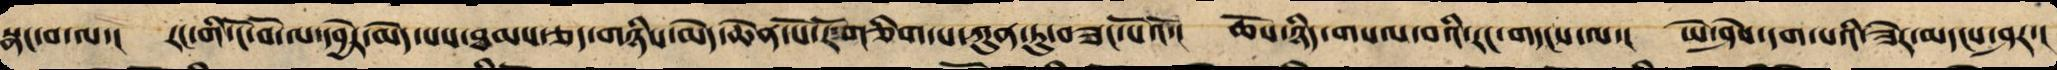སྣང་བ་ལས་། རང་གི་ངོ་བོ་ལ་དབྱེར་མེད་པས་ཐམས་ཅད་གཉིས་མེད་ཆེན་པོར་རོ་གཅིག་པས་ཀུན་ཏུ་བཟང་པོའོ་། ཆོས་ཉིད་གསལ་བའི་རང་གདངས་ལ་། ཡེ་ཤེས་དག་པའི་ཟེར་མདངས་ཤར་།
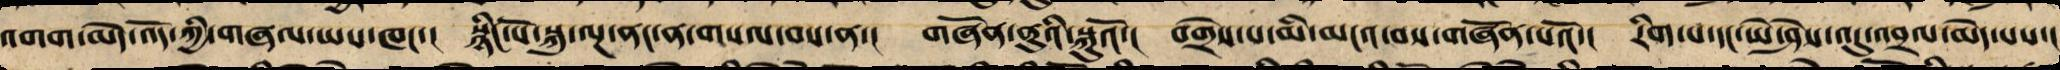འགག་མེད་འོད་ཀྱི་གཞལ་ཡས་ཁང་། སྙིང་པོ་སྐུ་ལྔ་ནང་ན་གསལ་བས་ན་། གཞོན་ནུའི་སྐུའོ་། བགྲེས་པ་མི་མངའ་བས་གཞོན་པའོ་། རིག་པ་དང་ཡེ་ཤེས་འདུ་འབྲལ་མེད་པས་།
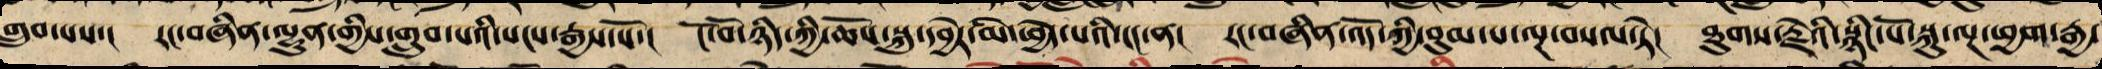གྲུབ་པས་། རང་བཞིན་ལྷུན་གྱིས་གྲུབ་པའི་སངས་རྒྱས་སོ་། ངོ་བོ་ཉིད་ཀྱི་སྐུ་དབྱེར་མི་ཕྱེད་པའི་ངང་ནས་། རང་བཞིན་འོད་ཀྱི་བུམ་པ་ལྔ་གསལ་ཏེ་། ཐུགས་རྗེའི་སྙིང་པོ་སྐུ་ལྔ་ཕྱག་རྒྱ་
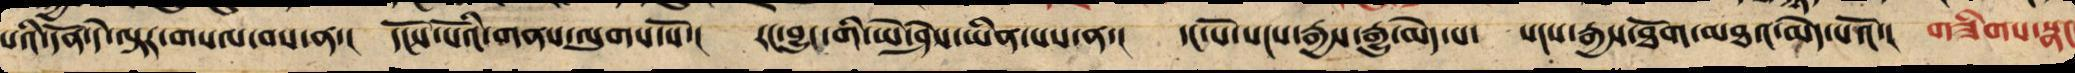པའི་དོན་དེ་ལྟར་གསལ་བས་ན་། དངོས་པོའི་གནས་ལུགས་སོ་། རང་བྱུང་གི་ཡེ་ཤེས་ཡིན་པས་ན་། དང་པོའི་སངས་རྒྱས་རྒྱུ་མེད་པ་། སངས་རྒྱས་ཐོག་མཐའ་མེད་པའོ་། གཟིགས་སྣང་
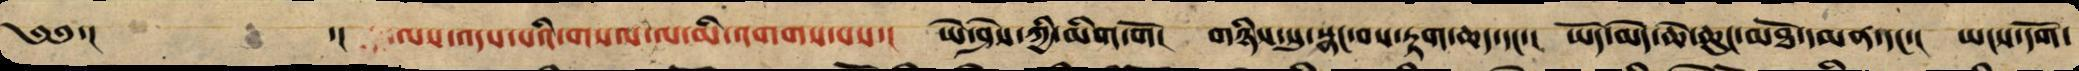༄༅་།  ་། ལས་འདས་པའི་གསལ་བ་མི་འགག་པས་། ཡེ་ཤེས་ཀྱི་མིག་གོ། གཉིས་སུ་སྣང་བས་རྟག་ཆད་དང་། ཡོད་མེད་ཆེ་ཆུང་མཐོ་དམན་དང་། ཡངས་དོག་
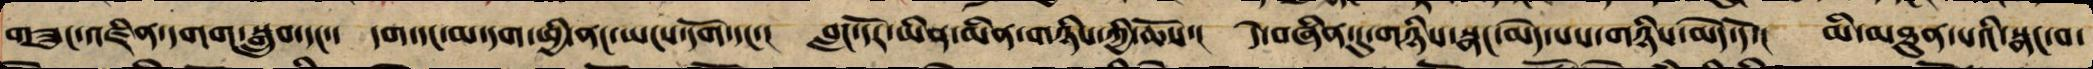གཟུང་འཛིན་དགག་སྒྲུབ་དང་། དག་དང་མ་དག་ཕྱི་ནང་ཡང་དོག་དང་། བླང་དོར་ཡིན་མིན་གཉིས་ཀྱི་ཆོས་། དེ་བཞིན་དུ་གཉིས་སྣང་མེད་པས་གཉིས་མེད་དོ་། མི་མཐུན་པའི་སྣང་བ་
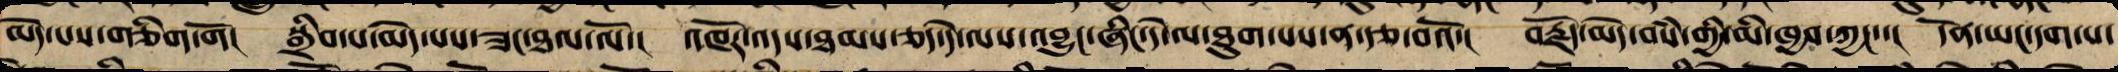མེད་པས་གཅིག་གོ། སྒྲིབ་པ་མེད་པས་ཟང་ཐལ་ལོ་། འཁོར་འདས་ཐམས་ཅད་དེ་ལས་འབྱུང་ཞིང་ཐུག་པས་ན་རྩ་བའོ་། བརྗོད་མེད་བསཾ་གྱིས་མི་ཁྱབ་ཀྱང་་། དོན་ཡང་དག་པ་
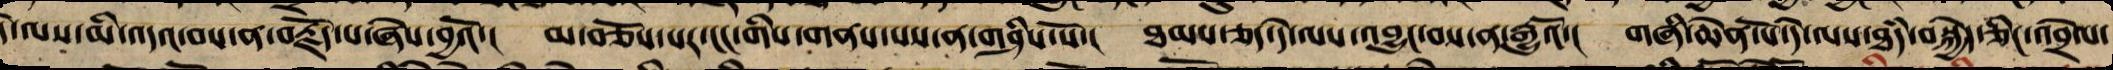དེ་ལས་མི་འདའ་བས་ན་བརྗོད་པ་ཞེས་བྱའོ་། མ་བཅོས་པར་ངང་གིས་གནས་པས་གཤིས་སོ་། ཐམས་ཅད་དེ་ལས་བྱུང་བས་ན་རྒྱུའོ་། གཞི་ཆེན་པོ་དེ་ལས་ཐཾད་བསྐྱེད་ཅིང་འབྲེལ་
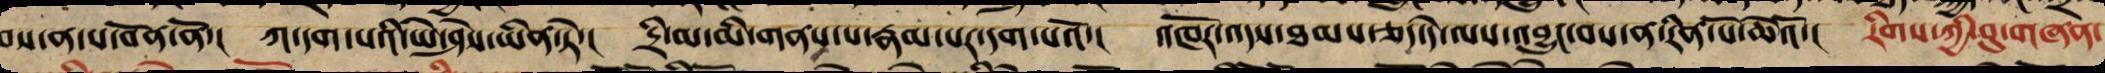བས་ན་ས་བོན་ནོ་། ཀ་དག་པའི་ཡེ་ཤེས་ཡིན་ཏེ་། དྲི་མ་མི་གནས་པ་རྣམ་པར་དག་པའོ་། འཁོར་འདས་ཐམས་ཅད་དེ་ལས་འབྱུང་བས་ན་རིན་པོ་ཆེའོ་། རིགས་ཀྱི་བུ་གཞན་
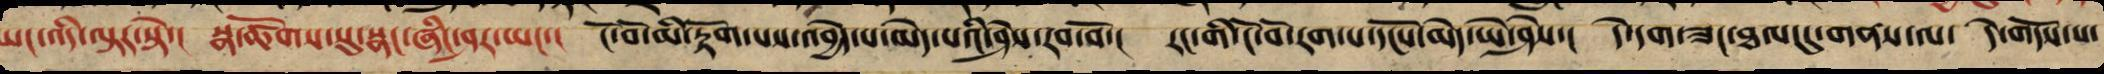ཡང་འདི་ལྟ་སྟེ་། སྣ་ཚོགས་སུ་སྣང་ཞིང་ཤར་ཡང་། ངོ་བོ་མི་རྟོག་པས་འབྱེད་པ་མེད་པའི་ཤེས་རབ་བོ་། རང་གི་ངོ་བོ་རག་པ་དངོས་མེད་ཡེ་ཤེས་། དེ་དག་ཟང་ཐལ་དུ་གནས་ལ་ དེ་གདོས་པ་
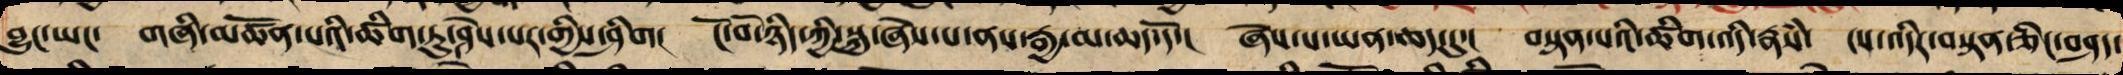བྱུང་ཡང་ གཞི་མཚོན་པའི་ཚིག་ཏུ་ཤེས་པར་གྱིས་ཤིག། ངོ་བོ་ཉིད་ཀྱི་སྐུ་ཞེས་པ་ནས་རྒྱ་མ་ཆད་དོ་། ཞེས་པ་ཡན་ཆད་དུ་། བསྟན་པའི་ཚིག་འདི་རྣཾས་ ངས་འདིར་བསྟན་ཅིང་བཤད་
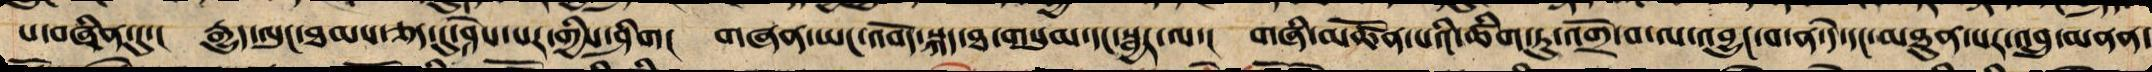པ་བཞིན་དུ་། རྒྱུད་ལུང་ཐམས་ཅད་དུ་ཤེས་པར་གྱིས་ཤིག། གཞན་ཡང་འབོད་སྐད་ཐ་གསུམ་དང་སྦྱར་ལ་། གཞི་མཚོན་པའི་ཚིག་ཏུ་འགྲོ་བ་ལ་འབྱུང་བ་ན་དེ་དང་མཐུན་པར་འབྲུ་མནན་
